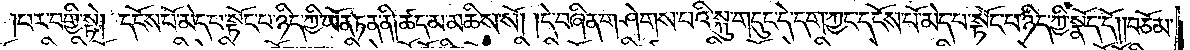པར་བགྱི་སྟེ། དངོས་པོ་མེད་པ་སྟོང་པ་ཉིད་ཀྱི་ཡོན་ཏན་ནི། ཚད་མ་མཆིས་སོ། །དེ་བཞིན་གཤེགས་པའི་སྐུ་གདུང་དེ་དག་ཀྱང་དངོས་པོ་མེད་པ་སྟོང་པ་ཉིད་ཀྱི་སྣོད་དོ། །བཅོམ་
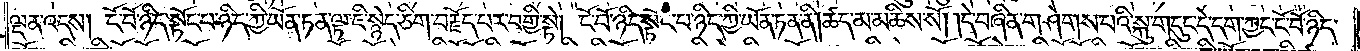ལྡན་འདས། ངོ་བོ་ཉིད་སྟོང་པ་ཉིད་ཀྱི་ཡོན་ཏན་ལྟ་ཇི་སྙེད་ཅིག་བརྗོད་པར་བགྱི་སྟེ། ངོ་བོ་ཉིད་སྟོང་པ་ཉིད་ཀྱི་ཡོན་ཏན་ནི། ཚད་མ་མཆིས་སོ། །དེ་བཞིན་གཤེགས་པའི་སྐུ་གདུང་དེ་དག་ཀྱང་ངོ་བོ་ཉིད་
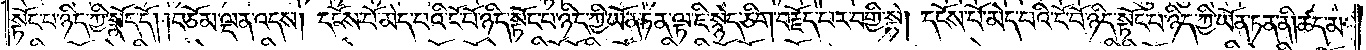སྟོང་པ་ཉིད་ཀྱི་སྣོད་དོ། །བཅོམ་ལྡན་འདས། དངོས་པོ་མེད་པའི་ངོ་བོ་ཉིད་སྟོང་པ་ཉིད་ཀྱི་ཡོན་ཏན་ལྟ་ཇི་སྙེད་ཅིག་བརྗོད་པར་བགྱི་སྟེ། དངོས་པོ་མེད་པའི་ངོ་བོ་ཉིད་སྟོང་པ་ཉིད་ཀྱི་ཡོན་ཏན་ནི། ཚད་མ་
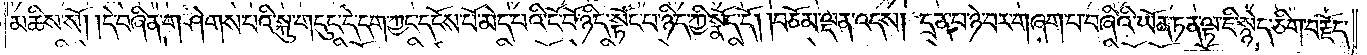མཆིས་སོ། །དེ་བཞིན་གཤེགས་པའི་སྐུ་གདུང་དེ་དག་ཀྱང་དངོས་པོ་མེད་པའི་ངོ་བོ་ཉིད་སྟོང་པ་ཉིད་ཀྱི་སྣོད་དོ། །བཅོམ་ལྡན་འདས། དྲན་པ་ཉེ་བར་གཞག་པ་བཞིའི་ཡོན་ཏན་ལྟ་ཇི་སྙེད་ཅིག་བརྗོད་
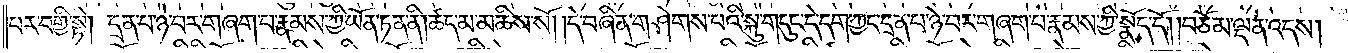པར་བགྱི་སྟེ། དྲན་པ་ཉེ་བར་བཞག་པ་རྣམས་ཀྱི་ཡོན་ཏན་ནི། ཚད་མ་མཆིས་སོ། །དེ་བཞིན་གཤེགས་པའི་སྐུ་གདུང་དེ་དག་ཀྱང་དྲན་པ་ཉེ་བར་གཞག་པ་རྣམས་ཀྱི་སྣོད་དོ། །བཅོམ་ལྡན་འདས།
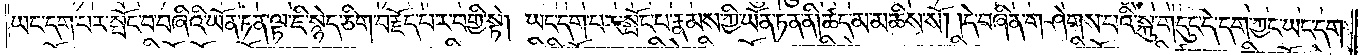ཡང་དག་པར་སྤོང་བ་བཞིའི་ཡོན་ཏན་ལྟ་ཇི་སྙེད་ཅིག་བརྗོད་པར་བགྱི་སྟེ། ཡང་དག་པར་སྤོང་བ་རྣམས་ཀྱི་ཡོན་ཏན་ནི་ཚད་མ་མཆིས་སོ། །དེ་བཞིན་གཤེགས་པའི་སྐུ་གདུང་དེ་དག་ཀྱང་ཡང་དག་
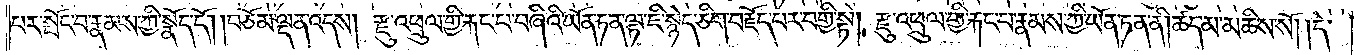པར་སྤོང་བ་རྣམས་ཀྱི་སྣོད་དོ། །བཅོམ་ལྡན་འདས། རྫུ་འཕྲུལ་གྱི་རྐང་པ་བཞིའི་ཡོན་ཏན་ལྟ་ཇི་སྙེད་ཅིག་བརྗོད་པར་བགྱི་སྟེ། རྫུ་འཕྲུལ་གྱི་རྐང་པ་རྣམས་ཀྱི་ཡོན་ཏན་ནི། ཚད་མ་མཆིས་སོ། །དེ་
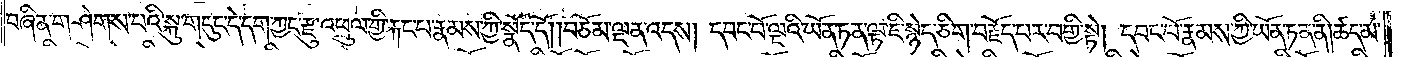བཞིན་གཤེགས་པའི་སྐུ་གདུང་དེ་དག་ཀྱང་རྫུ་འཕྲུལ་གྱི་རྐང་པ་རྣམས་ཀྱི་སྣོད་དོ། །བཅོམ་ལྡན་འདས། དབང་པོ་ལྔའི་ཡོན་ཏན་ལྟ་ཇི་སྙེད་ཅིག་བརྗོད་བར་བགྱི་སྟེ། དབང་པོ་རྣམས་ཀྱི་ཡོན་ཏན་ནི། ཚད་མ་
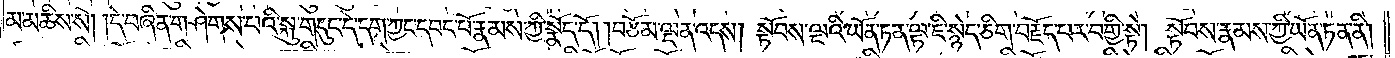མ་མཆིས་སོ། །དེ་བཞིན་གཤེགས་པའི་སྐུ་གདུང་དེ་དག་ཀྱང་དབང་པོ་རྣམས་ཀྱི་སྣོད་དོ། །བཅོམ་ལྡན་འདས། སྟོབས་ལྔའི་ཡོན་ཏན་ལྟ་ཇི་སྙེད་ཅིག་བརྗོད་པར་བགྱི་སྟེ། སྟོབས་རྣམས་ཀྱི་ཡོན་ཏན་ནི།
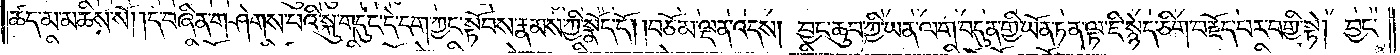ཚད་མ་མཆིས་སོ། །དེ་བཞིན་གཤེགས་པའི་སྐུ་གདུང་དེ་དག་ཀྱང་སྟོབས་རྣམས་ཀྱི་སྣོད་དོ། །བཅོམ་ལྡན་འདས། བྱང་ཆུབ་ཀྱི་ཡན་ལག་བདུན་གྱི་ཡོན་ཏན་ལྟ་ཇི་སྙེད་ཅིག་བརྗོད་པར་བགྱི་སྟེ། བྱང་
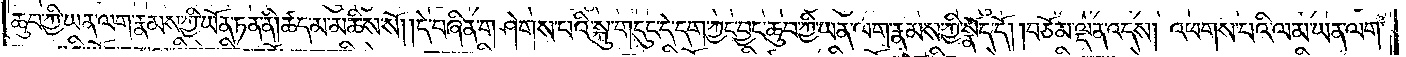ཆུབ་ཀྱི་ཡན་ལག་རྣམས་ཀྱི་ཡོན་ཏན་ནི། ཚད་མ་མཆིས་སོ། །དེ་བཞིན་གཤེགས་པའི་སྐུ་གདུང་དེ་དག་ཀྱང་བྱང་ཆུབ་ཀྱི་ཡན་ལག་རྣམས་ཀྱི་སྣོད་དོ། །བཅོམ་ལྡན་འདས། འཕགས་པའི་ལམ་ཡན་ལག་
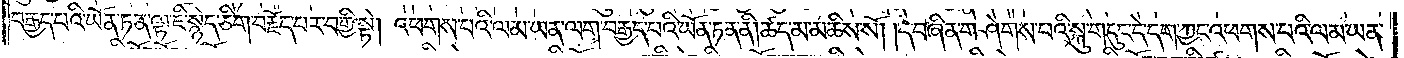བརྒྱད་པའི་ཡོན་ཏན་ལྟ་ཇི་སྙེད་ཅིག་བརྗོད་པར་བགྱི་སྟེ། འཕགས་པའི་ལམ་ཡན་ལག་བརྒྱད་པའི་ཡོན་ཏན་ནི། ཚད་མ་མཆིས་སོ། །དེ་བཞིན་གཤེགས་པའི་སྐུ་གདུང་དེ་དག་ཀྱང་འཕགས་པའི་ལམ་ཡན་
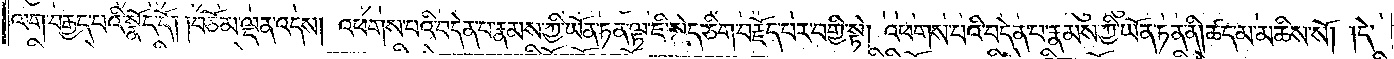ལག་བརྒྱད་པའི་སྣོད་དོ། །བཅོམ་ལྡན་འདས། འཕགས་པའི་བདེན་པ་རྣམས་ཀྱི་ཡོན་ཏན་ལྟ་ཇི་སྙེད་ཅིག་བརྗོད་པར་བགྱི་སྟེ། འཕགས་པའི་བདེན་པ་རྣམས་ཀྱི་ཡོན་ཏན་ནི། ཚད་མ་མཆིས་སོ། །དེ་
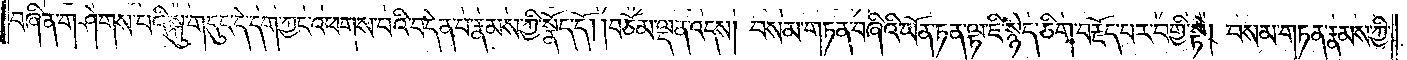བཞིན་གཤེགས་པའི་སྐུ་གདུང་དེ་དག་ཀྱང་འཕགས་པའི་བདེན་པ་རྣམས་ཀྱི་སྣོད་དོ། བཅོམ་ལྡན་འདས། བསམ་གཏན་བཞིའི་ཡོན་ཏན་ལྟ་ཇི་སྙེད་ཅིག་བརྗོད་པར་བགྱི་སྟེ། བསམ་གཏན་རྣམས་ཀྱི་
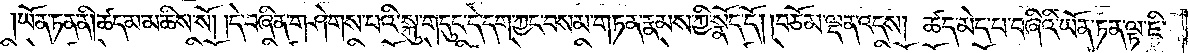ཡོན་ཏན་ནི། ཚད་མ་མཆིས་སོ། །དེ་བཞིན་གཤེགས་པའི་སྐུ་གདུང་དེ་དག་ཀྱང་བསམ་གཏན་རྣམས་ཀྱི་སྣོད་དོ། །བཅོམ་ལྡན་འདས། ཚད་མེད་པ་བཞིའི་ཡོན་ཏན་ལྟ་ཇི་
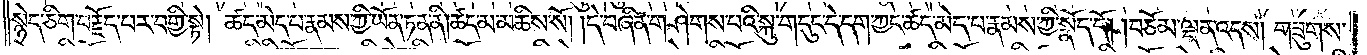སྙེད་ཅིག་བརྗོད་པར་བགྱི་སྟེ། ཚད་མེད་པ་རྣམས་ཀྱི་ཡོན་ཏན་ནི།ཚད་མ་མཆིས་སོ། །དེ་བཞིན་གཤེགས་པའི་སྐུ་གདུང་དེ་དག་ཀྱང་ཚད་མེད་པ་རྣམས་ཀྱི་སྣོད་དོ། །བཅོམ་ལྡན་འདས། གཟུགས་
